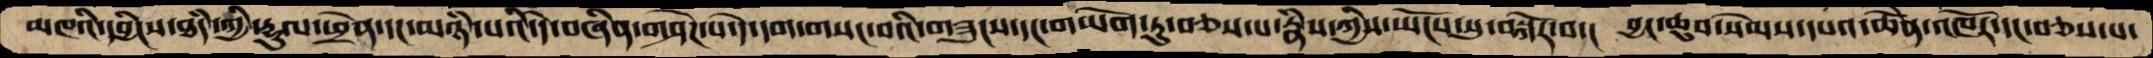མཁའི་དབྱིངས་ཐཾད་ཀྱི་རྡུལ་ཕྲེན་དང་མཉཾ་པའི་དེ་བཞིན་གཤེཌ་པ་དེ་དག་གསང་བའི་གཟུངས་དང་གཡོག་ཏུ་བཅས་པ་རྣཾས་ཀྱིས་ཡོངས་སུ་བསྐོར་བ་།  བྱང་ཆུབ་སེམས་དཔའ་ཆེོན་འཁོར་དང་བཅས་པ་
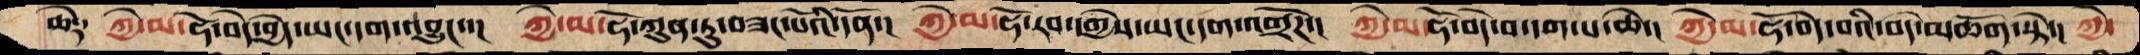ཆེ༑   ཀྱེ་མ་ཧོ་བདེ་བྱེད་ཡང་དག་འབྱུང་་།  ཀྱེ་མ་ཧོ་ཀུན་ཏུ་བཟང་པོའི་དོན་།  ཀྱེ་མ་ཧོ་རབ་དགྱེས་ཡང་དག་འགྲོཌ་།  ཀྱེ་མ་ཧོ་བདེ་བ་དག་པ་ཆེ་།  ཀྱེ་མ་ཧོ་བདེ་བའི་བདེ་མཆོག་སྟེ་།  ཀྱེ་
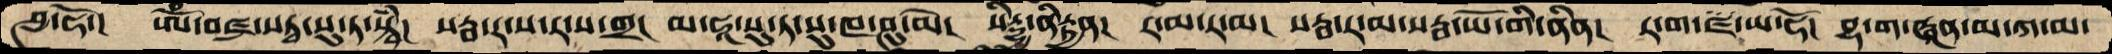ཤ་ཧོ་།  ཨོཾ་བཛྲ་སཏྭ་སུ་ཏ་སྟྭཾ།   སརྦ་ར་ས་ར་ས་གྲ།  མ་ཧཱ་སུ་ཏ་སུ་ཁ་ཤུ་མེ།  སིརྷྱ་ནི་རྟྱན།  ར་མ་ར་མ།  སརྦ་ར་མ་སརྦ་ཡོ་གི་ནིན།  ར་ག་ཛ་ཡ་ཧོ།  བྷ་ག་ཝན་མ་ཀ་མ་
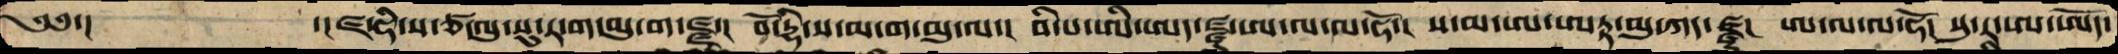༄༅་།         ་།ཛ་ཧི་ས་ཙ་ལུ་སུ་ར་ག་མུ་ག་ཛྫ་།  བོ་དྷི་ས་མ་ག་མུ་ལ་།  བི་པ་ཨི་ཨད་ཛྫ་ཨ་ལ་ལ་ཧོ་།  ས་མ་ཨ་ཨཏྟ་མུ་ཀར་ཛྫ།  ཨ་ལལ་ཧོ། སུ་ར་ཨ་ཨོད་
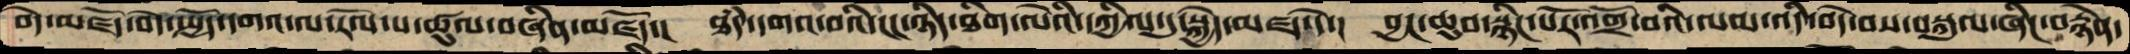བདེ་མཛོད་བདེ་སྤྱོད་དགའ་ལ་རོལ་པ་ཚུལ་བཞིན་མཛོད་།  ཐཾད་དགའ་བའི་ངང་ཉིད་ཐིག་ལེའི་དཀྱིལ་དུ་སྐྱེད་མཛད་དེ་།  བྱང་ཆུབ་སྙིང་པོར་འགྲོ་བའི་ལམ་འདི་བདེ་བས་བསྐུལ་ཞིང་བརྙེན་
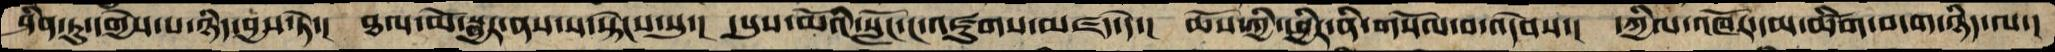ཤིན་ཏུ་དགྱེས་པ་ཉིད་བྱས་ཏེ་།  ཐལ་མོ་སྦྱར་ནས་ས་སྟེངས་སུ་།  དཔུས་མོའི་སློང་ང་འཛུགས་མཛད་དེ་།  ཆོས་ཀྱི་ཕྱིར་ནི་གསོལ་བ་འདེབས་།  དཀྱིལ་འཁོར་དམ་ཚིག་བདག་ཉིད་ལ་།
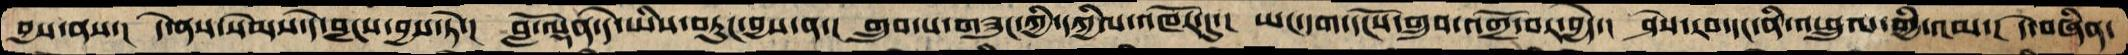བྱས་ནས་།  དེ་ནས་སེམས་དེ་བླངས་བྱས་ཏེ་།  བློ་ལྡན་དེ་ཡིས་བཏུང་བྱས་ན་།  གྲུབ་པ་གཟུང་ཀྱི་དཀྱིལ་འཁོར་དུ་།  ཡང་དག་དངོས་གྲུབ་འགྲོ་བར་བྱེད་།  ཤེས་རབ་དང་ནི་འཕྲུལ་གྱི་འམ་།  དེ་བཞིན་
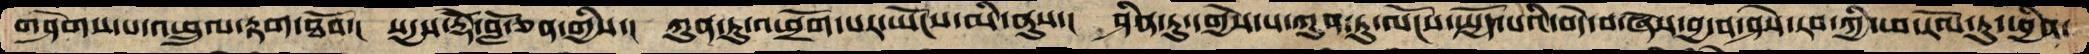གཤེགས་པ་འཕྲུལ་རྟག་ཐོབ་།  སདྱས་རྡོེ་བློ་ཅན་གྱིས་།  ཀུན་ཏུ་འཕྲོག་པར་ཡོངས་མི་ནུས་།  ཤིན་ཏུ་དགྱེས་པ་ཀུན་ཏུ་ལོངས་སྤྱོད་པའི་བདེ་བ་ཞེས་བྱ་བ་ཤེས་རབ་ཀྱི་ཕ་རོལ་ཏུ་ཕྱིན་
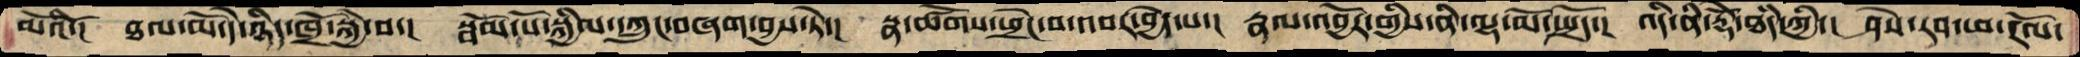མོའི་།  ཐལ་མོ་དེ་ཉིད་ཁྲོ་སྐྱེ་བ་།  སྦོམ་པོ་སྐྱིལ་དཀྲུང་བཞག་བྱས་ཏེ་།   སྣ་ཚོགས་ཕྲེང་བ་འབར་བྱེད་པ་།  རྣལ་འབྱོར་གྱིས་ནི་ལྷ་མོ་སྤྲོད་།  འདི་ནི་རྡོེ་ཐཾད་ཀྱི་།  ཤེས་རབ་ཕ་རོལ་
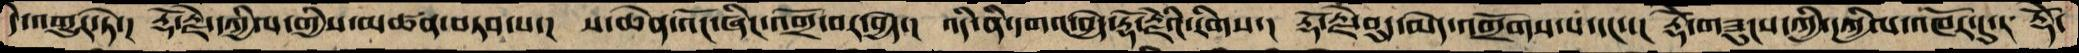དེ་འགྱུར་ཏེ་།  རྡོ་རྗེ་དཀྱིལ་གྱིས་མཚན་བཏབ་པ་།  ས་ཆེན་འོང་ཞིང་འགྲོ་བར་བྱེད་།  འདི་ནི་དགའ་བྱེད་རྡོ་རྗེའི་རིགས་།  རྡོ་རྗེ་བུད་མེད་འགྲོགས་པ་དང་་།  རྡོེ་གཟུངས་ཀྱི་དཀྱིལ་འཁོར་དུ་།  རྡོེ་
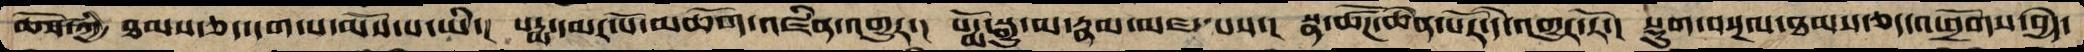ཆོས་ཀྱི་ ཐམས་ཅད་དག་པ་མོས་པ་ཡི་།  པདྨ་དམར་པོ་མཆོག་འཛིན་འགྱུར་།  པདྨོ་སྒྱུ་མ་རྣམ་མཛད་པས་།  སྣ་ཚོཌ་ཆེན་པོར་དེ་འགྱུར་ཏོ་།  སྡུག་བསྔལ་ཐམས་ཅད་འཕྲོགས་བྱེད་
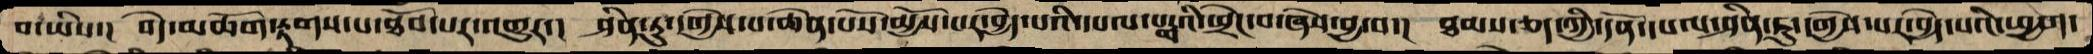བ་ཡིས་་།   བདེ་མཆོག་རྟགས་པ་ཐོབ་པར་འགྱུར་།  ཤིན་ཏུ་དགྱེས་པ་ཆེན་པོས་མྱོས་པར་བྱེད་པའི་དཔལ་པདྨའི་ཕྲེང་བ་ཞེས་བྱ་བ་།  ཐམས་ཅད་ཀྱི་དོན་དཔལ་ཤིན་ཏུ་དགྱེས་པར་བྱེད་པའི་ཕྱག་
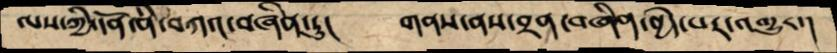ལས་ཀྱི་དོན་ནི་བཀའ་བཞིན་ཏུ་།  གནས་ནས་བྲན་བཞིན་བྱེད་པར་འགྱུར་།
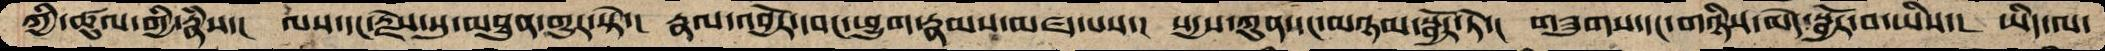ཀྱི་ཚུལ་གྱི་རྣཾས་།   ལས་དང་རྗེས་སུ་མཐུན་གྱུར་སྟེ་།  རྣལ་འབྱོར་དབང་ཕྱུག་རྣམས་མཛད་པས་།  སདྱས་ཀུན་དང་མཉམ་སྦྱོར་ཏེ་།  གཟུགས་དང་གཉིས་མེད་སྦྱོར་བ་ཡིས་།  ཡིད་ལ་
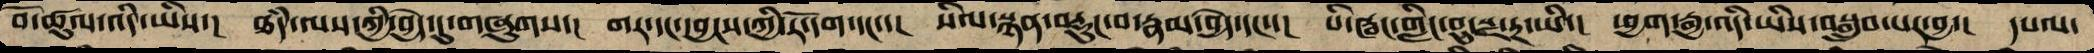བོ་ཚུལ་འདི་ཡིས་།  ཐཾད་ལས་ཀྱི་བྱེད་དུ་གཞུགས་།  གར་དང་དབྱངས་ཀྱི་རོ་དག་དང་་།  སིལ་སྙན་བརྡུང་བ་རྣམ་བྱེད་དང་་།  པི་ཝང་གླིང་བུ་སྫ་རྔ་ཡི་།  ཕྱག་རྒྱ་འདི་ཡིས་བསྒྲུབ་པར་བྱ་།  དཔལ་
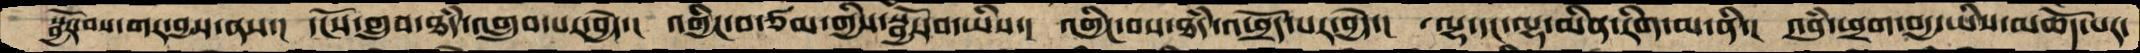སྦྱོར་བས་གར་བྱས་ནས་།  དངོས་གྲུབ་ཐཾད་འགྲུབ་པར་བྱེད་།  འགྱིང་བ་ཙམ་གྱིས་སྦྱོར་བ་ཡིས་།  འགྱིང་བས་ཐཾད་འཕྲོད་པར་བྱེད་།  ལྷ་དང་ལྷ་མིན་རིག་མ་ནི་།  འབུཾ་ཕྲག་བདྱ་ཡིས་མཆོད་པར་
